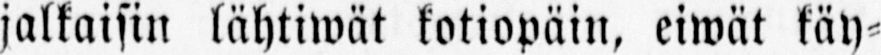jalkaisin lähtiwät kotiopäin, eiwät käy-
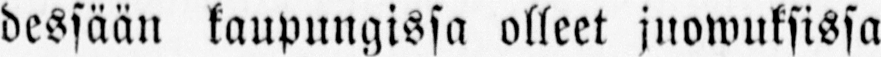dessään kaupungissa olleet juowuksissa
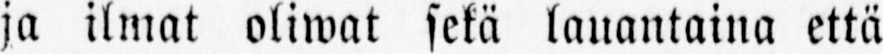ja ilmat oliwat sekä lauantaina että
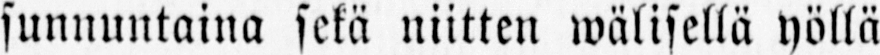sunnuntaina sekä niitten wälisellä yöllä
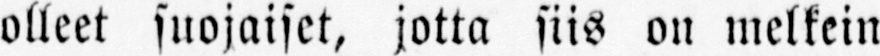olleet suojaiset, jotta siis on melkein
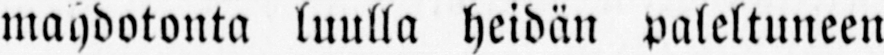maydotonta luulla heidän paleltuneen
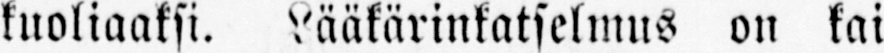kuoliaaksi. Lääkärinkatselmus on kai
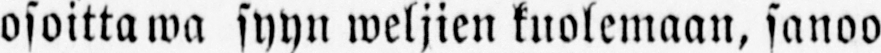osoittawa syyn weljien kuolemaan, sanoo
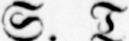S. T.
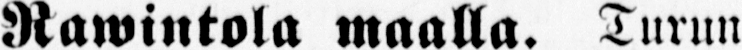— Rawintola maalla. Turun
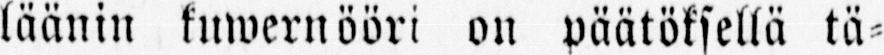läänin kuwernööri on päätöksellä tä-
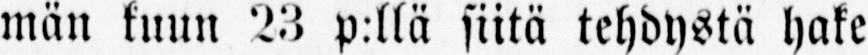män kuun 23 p:llä siitä tehdystä hake-
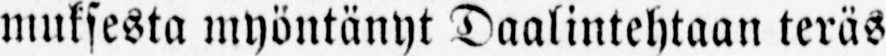muksesta myöntänyt Daalintehtaan teräs
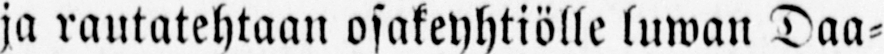ja rautatehtaan osakeyhtiölle luwan Daa-
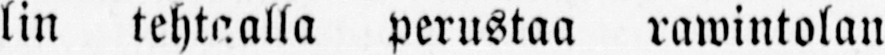lin tehtaalla perustaa rawintolan
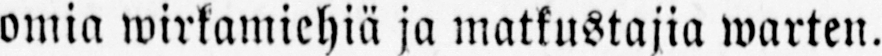omia wirkamiehiä ja matkustajia warten.
